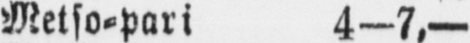Metso-pari 4—7,—
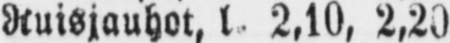Ruisjauhot, l. 2,10, 2,20
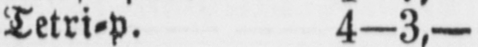Tetri-p. 4-3,-
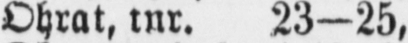Ohrat, tnr. 23—25,—
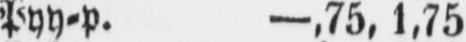Pyy-p. —,75, 1,75
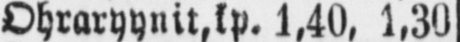Ohraryynit,kp. 1,40, 1,30
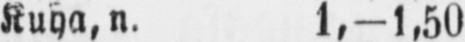Kuha, n. 1,-1,50
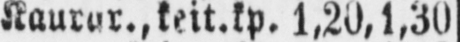Kaurar., teit.kp. 1,20, 1,30
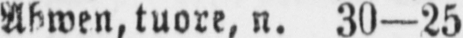Ahwen, tuore, n. 30-25
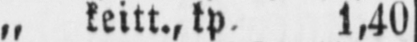„ keitt.,tp. 1,40
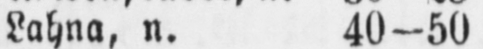Lahna, n. 40-50
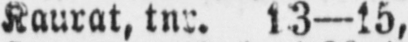Kaurat, tnr. 13—-15,
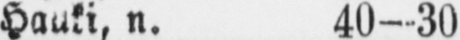Hauki, n. 40-30
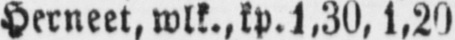Herneet, wlk., kp. 1,30, 1,20
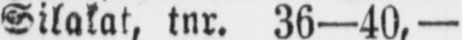Silakat, tnr. 36—40,—
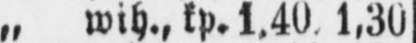„ wih., kp. 1,40 1,30
